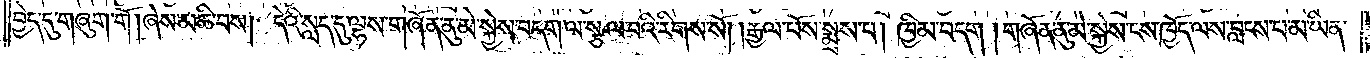བྱེད་དུ་གཞུག་གོ །ཞེས་མཆི་བས། དེའི་སླད་དུ་ལྷས་གཞོན་ནུ་མེ་སྐྱེས་བདག་ལ་སྩལ་བའི་རིགས་སོ། །རྒྱལ་པོས་སྨྲས་པ། ཁྱིམ་བདག། གཞོན་ནུ་མེ་སྐྱེས་ངས་ཁྱོད་ལས་བླངས་པ་མ་ཡིན་
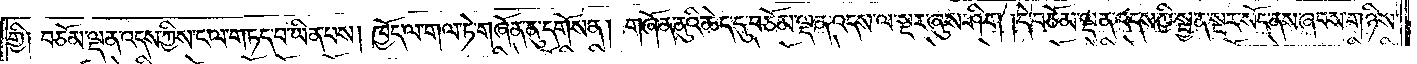གྱི། བཅོམ་ལྡན་འདས་ཀྱིས་ང་ལ་གཏད་པ་ཡིན་པས། ཁྱོད་ལ་གལ་ཏེ་གཞོན་ནུ་དགོས་ན། གཞོན་ནུའི་ཆེད་དུ་བཅོམ་ལྡན་འདས་ལ་སྔར་ཞུས་ཤིག །དེ་བཅོམ་ལྡན་འདས་ཀྱི་སྤྱན་སྔར་སོང་ནས་ཞབས་གཉིས་
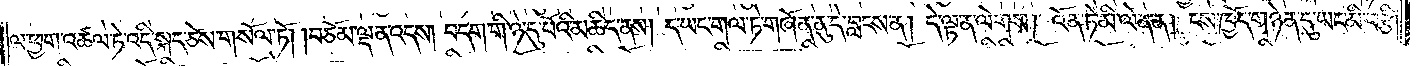ལ་ཕྱག་འཚལ་ཏེ་འདི་སྐད་ཅེས་གསོལ་ཏོ། །བཅོམ་ལྡན་འདས། བདག་གི་ཉེ་དུ་པོའི་མཆིད་ནས། ད་ཡང་གལ་ཏེ་གཞོན་ནུ་དེ་བླངས་ན། དེ་ལྟ་ན་ལེགས། འོན་ཏེ་མི་ལེན་ན། ངས་ཁྱོད་གཉེན་དུ་ཡང་མི་བརྩི།
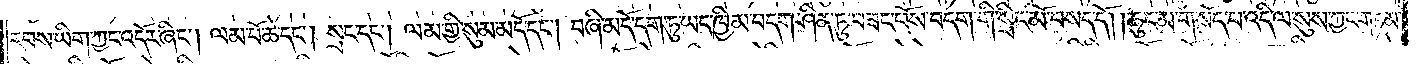རབས་ཡིག་ཀྱང་འདོར་ཞིང༌། ལམ་པོ་ཆེ་དང༌། སྲང་དང༌། ལམ་གྱི་སུམ་མདོ་དང༌། བཞི་མདོ་དག་ཏུ་ཡང་ཁྱིམ་བདག་ཤིན་ཏུ་བཟང་པོས་བདག་གི་སྲིང་མོ་བསད་དོ། །ཆུང་མ་གསོད་པ་འདི་ལ་སུས་ཀྱང་གཏམ་
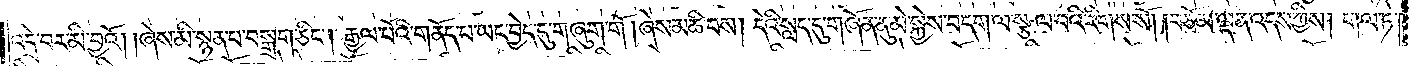འདྲེ་བར་མི་བྱའོ། །ཞེས་མི་སྙན་པ་བསྒྲག་ཅིང༌། རྒྱལ་པོའི་གནོད་པ་ཡང་བྱེད་དུ་གཞུག་གོ། ཞེས་མཆི་བས། དེའི་སླད་དུ་གཞོན་ནུ་མེ་སྐྱེས་བདག་ལ་སྩལ་བའི་རིགས་སོ། །བཅོམ་ལྡན་འདས་ཀྱིས། གལ་ཏེ་
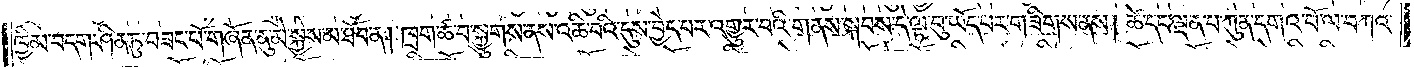ཁྱིམ་བདག་ཤིན་ཏུ་བཟང་པོ་གཞོན་ནུ་མེ་སྐྱེས་མ་ཐོབ་ན། ཁྲག་ཚ་བ་སྐྱུགས་ནས་འཆི་བའི་དུས་བྱེད་པར་འགྱུར་བའི་གནས་སྐབས་དེ་ལྟ་བུ་ཡོད་པར་གཟིགས་ནས། ཚེ་དང་ལྡན་པ་ཀུན་དགའ་བོ་ལ་བཀའ་
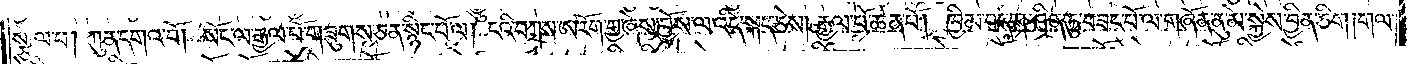སྩལ་པ། ཀུན་དགའ་བོ། སོང་ལ་རྒྱལ་པོ་གཟུགས་ཅན་སྙིང་པོ་ལ། ངའི་བཀས་ཨ་རོག་གྱ་ཞེས་བྱོས་ལ་འདི་སྐད་ཅེས། རྒྱལ་པོ་ཆེན་པོ། ཁྱིམ་བདག་ཤིན་ཏུ་བཟང་པོ་ལ་གཞོན་ནུ་མེ་སྐྱེས་བྱིན་ཅིག །གལ་
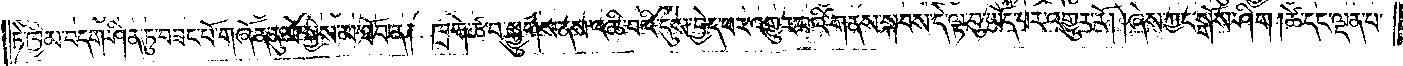ཏེ་ཁྱིམ་བདག་ཤིན་ཏུ་བཟང་པོ་གཞོན་ནུ་མེ་སྐྱེས་མ་ཐོབ་ན། ཁྲག་ཚ་བ་སྐྱུགས་ནས་འཆི་བའི་དུས་བྱེད་པར་འགྱུར་བའི་གནས་སྐབས་དེ་ལྟ་བུ་ཡོད་པར་འགྱུར་རོ། །ཞེས་ཀྱང་སྒོས་ཤིག །ཚེ་དང་ལྡན་པ་
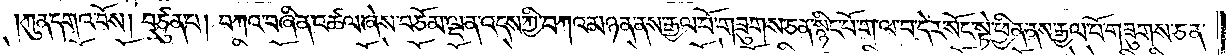ཀུན་དགའ་བོས། བཙུན་པ། བཀའ་བཞིན་འཚལ་ཞེས་བཅོམ་ལྡན་འདས་ཀྱི་བཀའ་མཉན་ནས་རྒྱལ་པོ་གཟུགས་ཅན་སྙིང་པོ་ག་ལ་བ་དེར་སོང་སྟེ་ཕྱིན་ནས་རྒྱལ་པོ་གཟུགས་ཅན་
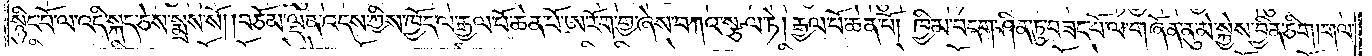སྙིང་པོ་ལ་འདི་སྐད་ཅེས་སྨྲས་སོ། །བཅོམ་ལྡན་འདས་ཀྱིས་ཁྱོད་ལ་རྒྱལ་པོ་ཆེན་པོ་ཨ་རོག་གྱ་ཞེས་བཀའ་སྩལ་ཏེ། རྒྱལ་པོ་ཆེན་པོ། ཁྱིམ་བདག་ཤིན་ཏུ་བཟང་པོ་ལ་གཞོན་ནུ་མེ་སྐྱེས་བྱིན་ཅིག། གལ་
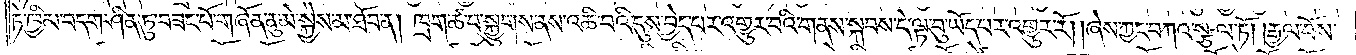ཏེ་ཁྱིམ་བདག་ཤིན་ཏུ་བཟང་པོ་གཞོན་ནུ་མེ་སྐྱེས་མ་ཐོབ་ན། ཁྲག་ཚ་བ་སྐྱུགས་ནས་འཆི་བའི་དུས་བྱེད་པར་འགྱུར་བའི་གནས་སྐབས་དེ་ལྟ་བུ་ཡོད་པར་འགྱུར་རོ། །ཞེས་ཀྱང་བཀའ་སྩལ་ཏོ། །རྒྱལ་པོས་
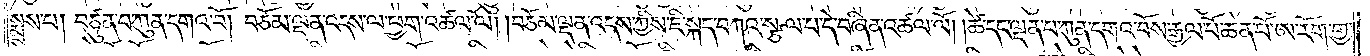སྨྲས་པ། བཙུན་པ་ཀུན་དགའ་བོ། བཅོམ་ལྡན་འདས་ལ་ཕྱག་འཚལ་ལོ། །བཅོམ་ལྡན་འདས་ཀྱིས་ཇི་སྐད་བཀའ་སྩལ་པ་དེ་བཞིན་འཚལ་ལོ། །ཚེ་དང་ལྡན་པ་ཀུན་དགའ་བོས་རྒྱལ་པོ་ཆེན་པོ་ཨ་རོག་གྱ་
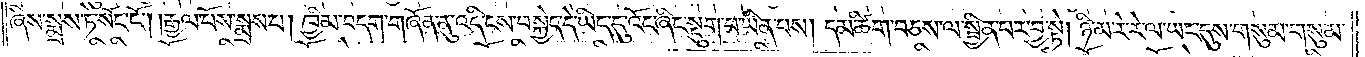ཞེས་སྨྲས་ཏེ་སོང་ངོ༌། །རྒྱལ་པོས་སྨྲས་པ། ཁྱིམ་བདག་གཞོན་ནུ་འདི་ངས་བསྐྱེད་དེ་ཡིད་དུ་འོང་ཞིང་སྡུག་པ་ཡིན་པས། དམ་ཚིག་བཅས་ལ་སྦྱིན་པར་བྱ་སྟེ། ཉི་མ་རེ་རེ་ལ་ཡང་དུས་གསུམ་གསུམ་
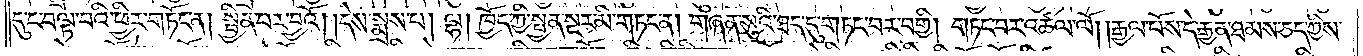དུ་ང་བལྟ་བའི་ཕྱིར་གཏོང་ན། སྦྱིན་པར་བྱའོ། །དེས་སྨྲས་པ། ལྷ། ཁྱོད་ཀྱི་སྤྱན་སྔར་མི་གཏང་ན། གཞན་སུའི་ཐད་དུ་གཏང་བར་བགྱི། གཏང་བར་འཚལ་ལོ། །རྒྱལ་པོས་དེ་རྒྱན་ཐམས་ཅད་ཀྱིས་
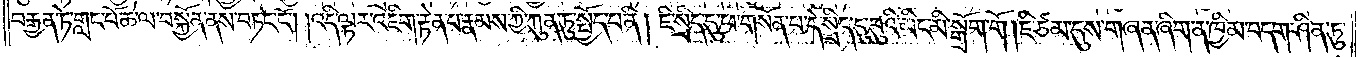བརྒྱན་ཏེ་གླང་པོ་ཆེ་ལ་བསྐྱོན་ནས་བཏང་ངོ༌། །འདི་ལྟར་འཇིག་རྟེན་པ་རྣམས་ཀྱི་ཀུན་ཏུ་སྤྱོད་པ་ནི། ཇི་སྲིད་དུ་ཕ་གསོན་པ་དེ་སྲིད་དུ་བུའི་མིང་མི་སྒྲོག་གོ །ཇི་ཙམ་དུས་གཞན་ཞིག་ན་ཁྱིམ་བདག་ཤིན་ཏུ་
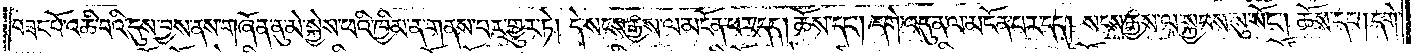བཟང་པོ་འཆི་བའི་དུས་བྱས་ནས་གཞོན་ནུ་མེ་སྐྱེས་ཕའི་ཁྱིམ་ན་གནས་པར་གྱུར་ཏེ། དེ་སངས་རྒྱས་ལ་མངོན་པར་དད། ཆོས་དང༌། དགེ་འདུན་ལ་མངོན་པར་དད། སངས་རྒྱས་ལ་སྐྱབས་སུ་སོང༌། ཆོས་དང༌། དགེ་
